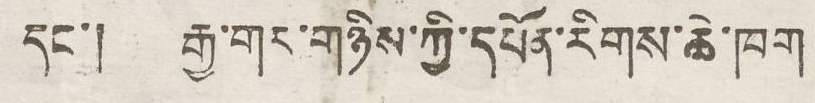དང་། རྒྱ་གར་གཉིས་ཀྱི་དཔོན་རིགས་ཆེ་ཁག
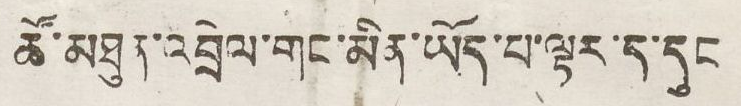ཚོ་མཐུན་འབྲེལ་གང་མིན་ཡོད་པ་ལྟར་ད་དུང
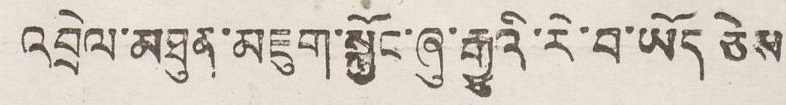འབྲེལ་མཐུན་མཇུག་སྐྱོང་ཞུ་རྒྱུའི་རེ་བ་ཡོད ཅེས
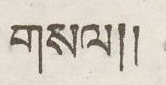གསལ།།
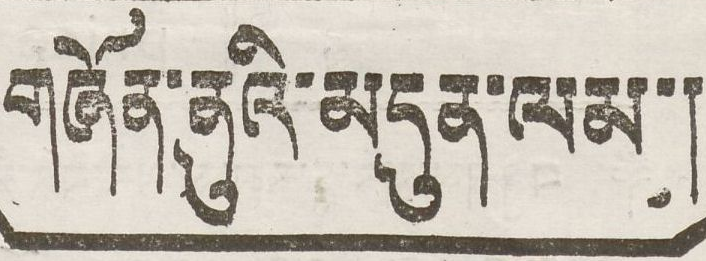གཞོན་ནུའི་མདུན་ལམ་།
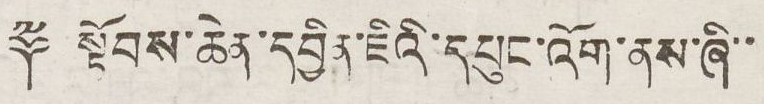༈ སྟོབས་ཆེན་དབྱིན་ཇིའི་དཔུང་འོག་ནས་ཞི་་
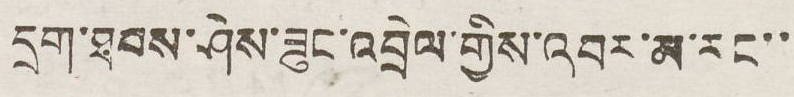དྲུག་ཐབས་ཤེས་ཟུང་འབྲེལ་གྱིས་འབར་མ་རང་་
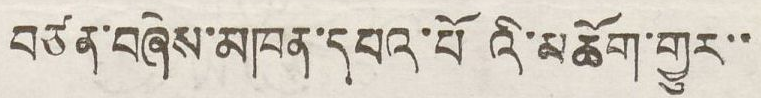བཙན་བཞེས་མཁན་དཔའ་པོའི་མཆོག་གྱུར་་
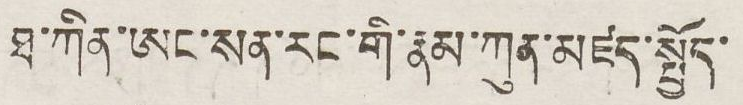ཐ་ཀིན་ཨང་སན་རང་གི་རྣམ་ཀུན་མཛད་སྤྱོད་
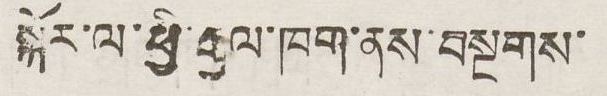སྐོར་ལ་ཕྱི་རྒྱལ་ཁག་ནས་བསྔགས་
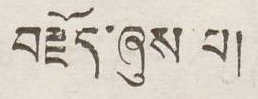བརྗོད་ཞུས པ།
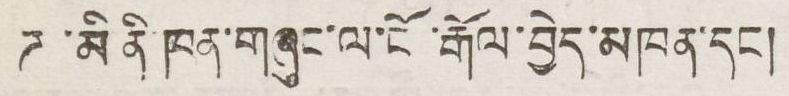ཌ་མི ནི་ཁན་གཞུང་ལ་ངོ་རྒོལ་བྱེད་མཁན་དང།
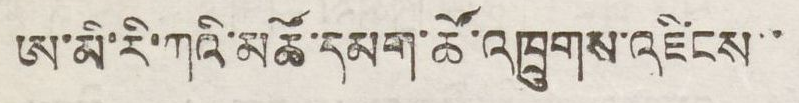ཨ་མི་རི་ཀའི་མཚོ་དམག་ཚེ་འཁྲུགས་འཛིངས་་
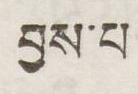བྱས་པ།
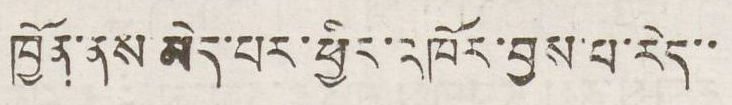ཁྱོན་ནས་མེད་པར་ཕྱིར་འཁོར་བྱས་པ་རེད་་
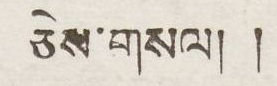ཅེས་གསལ། །
